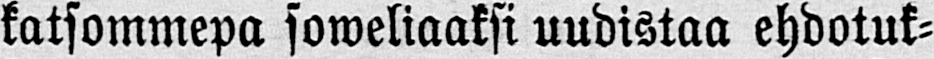katsommepa soweliaaksi uudistaa ehdotuk-
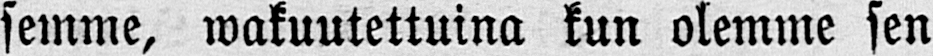semme, wakuutettuina kun olemme sen
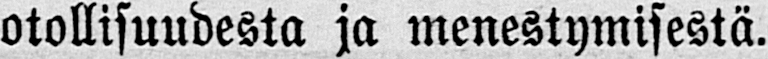otollisuudesta ja menestymisestä.
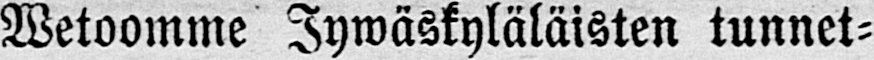Wetoomme Jywäskyläläisten tunnet-
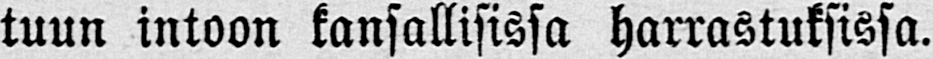tuun intoon kansallisissa harrastuksissa.
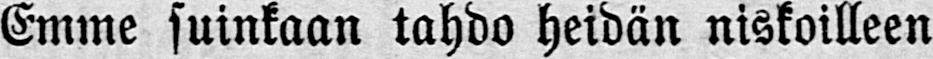Emme suinkaan tahdo heidän niskoilleen
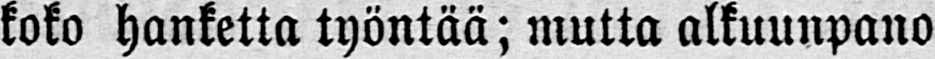koko hanketta työntää; mutta alkuunpano
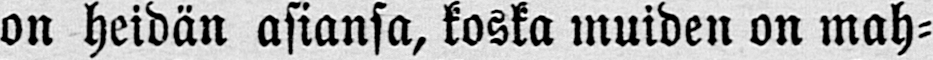on heidän asiansa, koska muiden on mah-
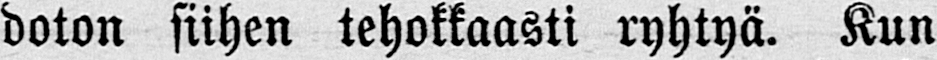doton siihen tehokkaasti ryhtyä. Kun
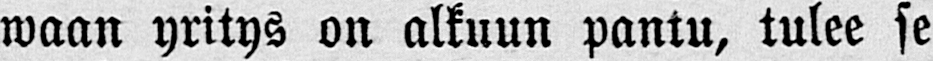waan yritys on alkuun pantu, tulee se
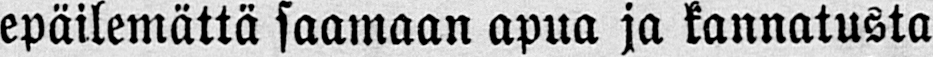epäilemättä saamaan apua ja kannatusta
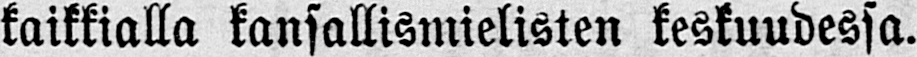kaikkialla kansallismielisten keskuudessa.
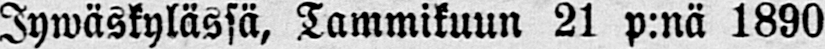Jywäskylässä, Tammikuun 21 p:nä 1890.
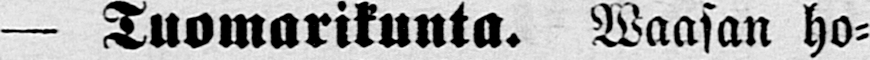— Tuomarikunt a. Waasan ho-
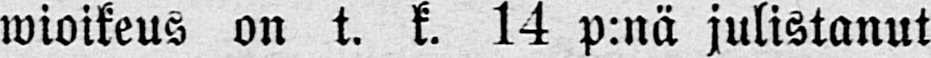wioikeus on t. k. 14 p:nä julistanut
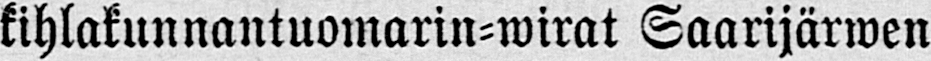kihlakunnantuomarin-wirat Saarijärwen
